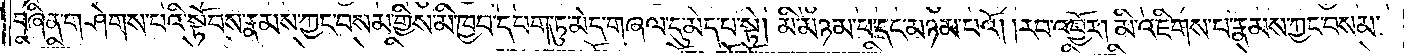བཞིན་གཤེགས་པའི་སྟོབས་རྣམས་ཀྱང་བསམ་གྱིས་མི་ཁྱབ་དཔག་ཏུ་མེད་གཞལ་དུ་མེད་པ་སྟེ། མི་མཉམ་པ་དང་མཉམ་པའོ། །རབ་འབྱོར། མི་འཇིགས་པ་རྣམས་ཀྱང་བསམ་
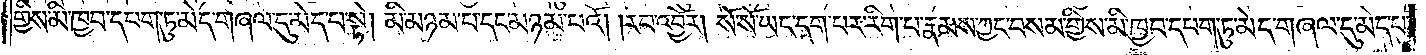གྱིས་མི་ཁྱབ་དཔག་ཏུ་མེད་གཞལ་དུ་མེད་པ་སྟེ། མི་མཉམ་པ་དང་མཉམ་པའོ། །རབ་འབྱོར། སོ་སོ་ཡང་དག་པར་རིག་པ་རྣམས་ཀྱང་བསམ་གྱིས་མི་ཁྱབ་དཔག་ཏུ་མེད་གཞལ་དུ་མེད་པ་
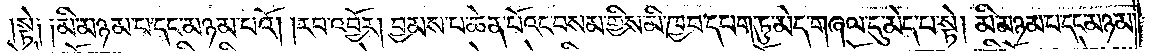སྟེ༑ ༑མི་མཉམ་པ་དང་མཉམ་པའོ། །རབ་འབྱོར། བྱམས་པ་ཆེན་པོའང་བསམ་གྱིས་མི་ཁྱབ་དཔག་ཏུ་མེད་གཞལ་དུ་མེད་པ་སྟེ། མི་མཉམ་པ་དང་མཉམ་
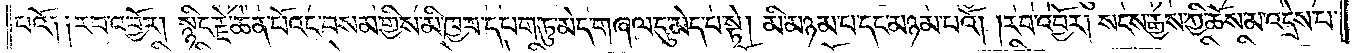པའོ༑ ༑རབ་འབྱོར། སྙིང་རྗེ་ཆེན་པོའང་བསམ་གྱིས་མི་ཁྱབ་དཔག་ཏུ་མེད་གཞལ་དུ་མེད་པ་སྟེ། མི་མཉམ་པ་དང་མཉམ་པའོ། །རབ་འབྱོར། སངས་རྒྱས་ཀྱི་ཆོས་མ་འདྲེས་པ་
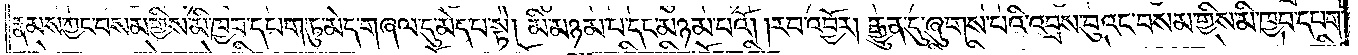རྣམས་ཀྱང་བསམ་གྱིས་མི་ཁྱབ་དཔག་ཏུ་མེད་གཞལ་དུ་མེད་པ་སྟེ། མི་མཉམ་པ་དང་མཉམ་པའོ། །རབ་འབྱོར། རྒྱུན་དུ་ཞུགས་པའི་འབྲས་བུའང་བསམ་གྱིས་མི་ཁྱབ་དཔག་
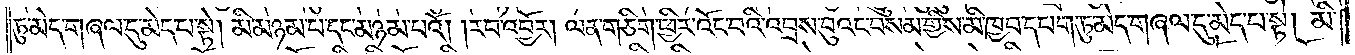ཏུ་མེད་གཞལ་དུ་མེད་པ་སྟེ། མི་མཉམ་པ་དང་མཉམ་པའོ། །རབ་འབྱོར། ལན་གཅིག་ཕྱིར་འོང་བའི་འབྲས་བུའང་བསམ་གྱིས་མི་ཁྱབ་དཔག་ཏུ་མེད་གཞལ་དུ་མེད་པ་སྟེ། མི་
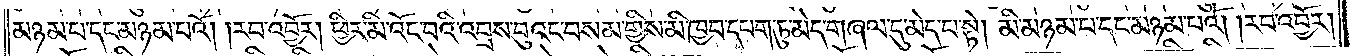མཉམ་པ་དང་མཉམ་པའོ། །རབ་འབྱོར། ཕྱིར་མི་འོང་བའི་འབྲས་བུའང་བསམ་གྱིས་མི་ཁྱབ་དཔག་ཏུ་མེད་གཞལ་དུ་མེད་པ་སྟེ། མི་མཉམ་པ་དང་མཉམ་པའོ། །རབ་འབྱོར།
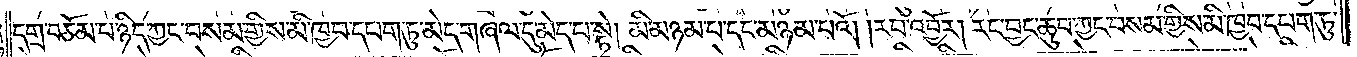དགྲ་བཅོམ་པ་ཉིད་ཀྱང་བསམ་གྱིས་མི་ཁྱབ་དཔག་ཏུ་མེད་གཞལ་དུ་མེད་པ་སྟེ། མི་མཉམ་པ་དང་མཉམ་པའོ། །རབ་འབྱོར། རང་བྱང་ཆུབ་ཀྱང་བསམ་གྱིས་མི་ཁྱབ་དཔག་ཏུ་
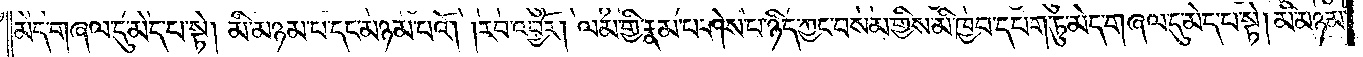མེད་གཞལ་དུ་མེད་པ་སྟེ། མི་མཉམ་པ་དང་མཉམ་པའོ། །རབ་འབྱོར། ལམ་གྱི་རྣམ་པ་ཤེས་པ་ཉིད་ཀྱང་བསམ་གྱིས་མི་ཁྱབ་དཔག་ཏུ་མེད་གཞལ་དུ་མེད་པ་སྟེ། མི་མཉམ་
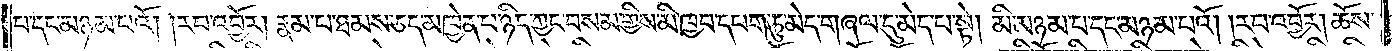པ་དང་མཉམ་པའོ། །རབ་འབྱོར། རྣམ་པ་ཐམས་ཅད་མཁྱེན་པ་ཉིད་ཀྱང་བསམ་གྱིས་མི་ཁྱབ་དཔག་ཏུ་མེད་གཞལ་དུ་མེད་པ་སྟེ། མི་མཉམ་པ་དང་མཉམ་པའོ། །རབ་འབྱོར། ཆོས་
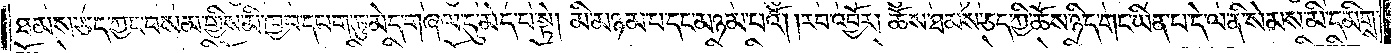ཐམས་ཅད་ཀྱང་བསམ་གྱིས་མི་ཁྱབ་དཔག་ཏུ་མེད་གཞལ་དུ་མེད་པ་སྟེ། མི་མཉམ་པ་དང་མཉམ་པའོ། །རབ་འབྱོར། ཆོས་ཐམས་ཅད་ཀྱི་ཆོས་ཉིད་གང་ཡིན་པ་དེ་ལ་ནི་སེམས་མི་དམིགས་
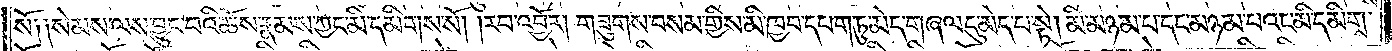སོ༑ ༑སེམས་ལས་བྱུང་བའི་ཆོས་རྣམས་ཀྱང་མི་དམིགས་སོ། །རབ་འབྱོར། གཟུགས་བསམ་གྱིས་མི་ཁྱབ་དཔག་ཏུ་མེད་གཞལ་དུ་མེད་པ་སྟེ། མི་མཉམ་པ་དང་མཉམ་པའང་མི་དམིགས་
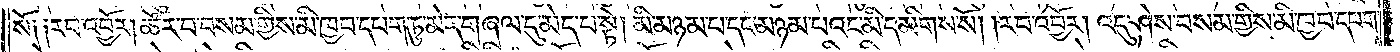སོ༑ ༑རབ་འབྱོར། ཚོར་བ་བསམ་གྱིས་མི་ཁྱབ་དཔག་ཏུ་མེད་གཞལ་དུ་མེད་པ་སྟེ། མི་མཉམ་པ་དང་མཉམ་པའང་མི་དམིགས་སོ། །རབ་འབྱོར། འདུ་ཤེས་བསམ་གྱིས་མི་ཁྱབ་དཔག་
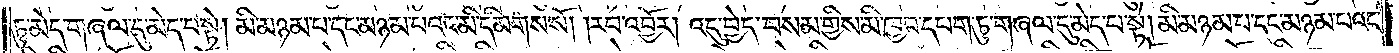ཏུ་མེད་གཞལ་དུ་མེད་པ་སྟེ། མི་མཉམ་པ་དང་མཉམ་པའང་མི་དམིགས་སོ། །རབ་འབྱོར། འདུ་བྱེད་བསམ་གྱིས་མི་ཁྱབ་དཔག་ཏུ་མེད་གཞལ་དུ་མེད་པ་སྟེ། མི་མཉམ་པ་དང་མཉམ་པའང་
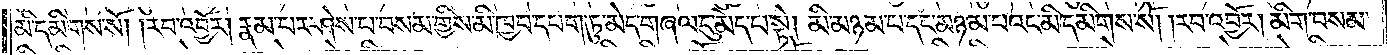མི་དམིགས་སོ། །རབ་འབྱོར། རྣམ་པར་ཤེས་པ་བསམ་གྱིས་མི་ཁྱབ་དཔག་ཏུ་མེད་གཞལ་དུ་མེད་པ་སྟེ། མི་མཉམ་པ་དང་མཉམ་པའང་མི་དམིགས་སོ། །རབ་འབྱོར། མིག་བསམ་
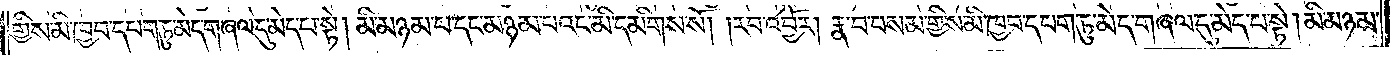གྱིས་མི་ཁྱབ་དཔག་ཏུ་མེད་གཞལ་དུ་མེད་པ་སྟེ། མི་མཉམ་པ་དང་མཉམ་པའང་མི་དམིགས་སོ། །རབ་འབྱོར། རྣ་བ་བསམ་གྱིས་མི་ཁྱབ་དཔག་ཏུ་མེད་གཞལ་དུ་མེད་པ་སྟེ། མི་མཉམ་
